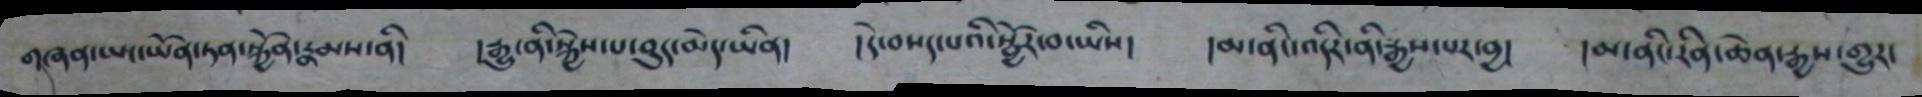གཞན་ཡང་ཡོན་ཏན་སྐྱོན་རྣམས་ནི། །རྒྱུ་ནི་སྐྱེས་པ་བུད་མེད་ཡིན། །དེ་བསད་པའི་སྦྱོར་བ་ཡིས། །མ་ནིང་འདིར་ནི་རྒྱས་པར་བྱ། །མ་ནིང་རིན་ཆེན་རྒྱས་གྱུར་
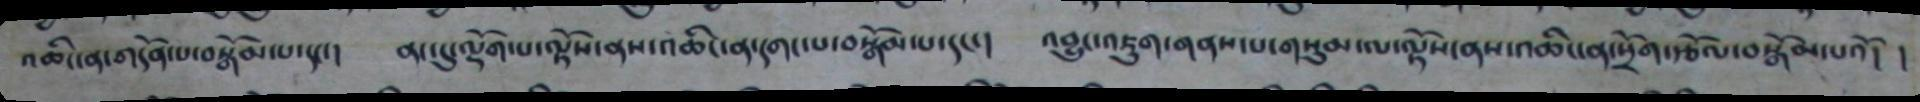འཆིང་ན་གདོན་པ་བསྒོམ་པ་དང་། ནང་དུ་ལྡོག་པ་ལྟོས་ནས་འཆིང་ན་དག་པ་བསྒོམ་པ་དང་། འབྱུང་འཇུག་གནས་པ་གསུམ་ལ་ལྟོས་ནས་འཆིང་ན་སྲོག་རྩོལ་བསྒོམ་པའོ། །
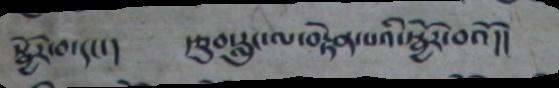སྦྱོར་བ་དང་། རྩུབ་རླུང་ལ་བརྟེན་པའི་སྦྱོར་བའོ།།
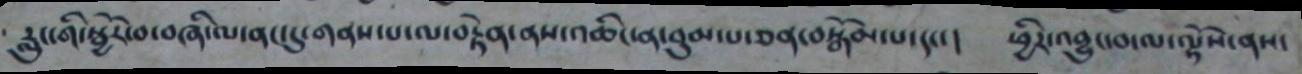རླུང་གི་སྦྱོར་བ་བཞི་ལ་ནང་དུ་གནས་པ་ལ་བརྟེན་ནས་འཆིང་ན་བུམ་པ་ཅན་བསྒོམ་པ་དང་། ཕྱིར་འབྱུང་བ་ལ་ལྟོས་ནས་
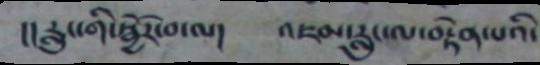།།རླུང་གི་སྦྱོར་བ་ལ། འཇམ་རླུང་ལ་བརྟེན་པའི་
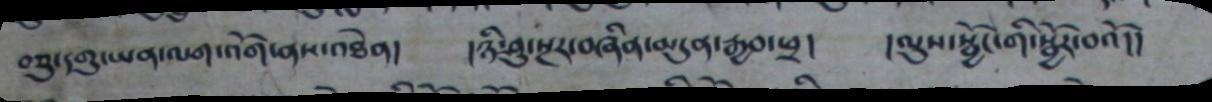བཅུ་དགུ་ཡན་ལག་འོག་ནས་འཐེན། །ཉི་ཤཱུ་སྔར་བཞིན་མདུན་རྒྱབ་ཕྲ། །ལུས་སྦྱོང་གི་སྦྱོར་བའོ།།
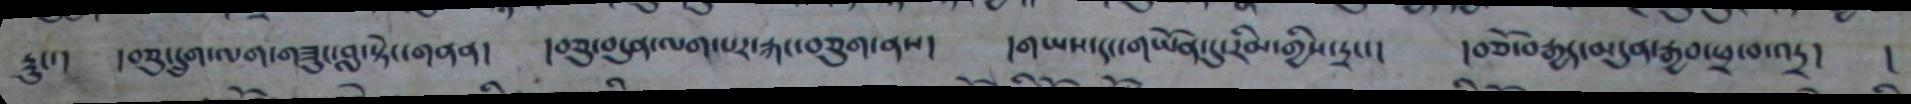རླུང་། །བཅུ་དྲུག་ལག་གཟུང་བླ་སྟེ་གནན། །བཅུ་བདུན་ལག་པར་རྐང་བཅུག་ནས། །གཡས་དང་གཡོན་དུ་རིམ་གྱིས་དྲང་། །བཅོ་བརྒྱད་མདུན་རྒྱབ་ཕྲ་བ་འདྲ། །
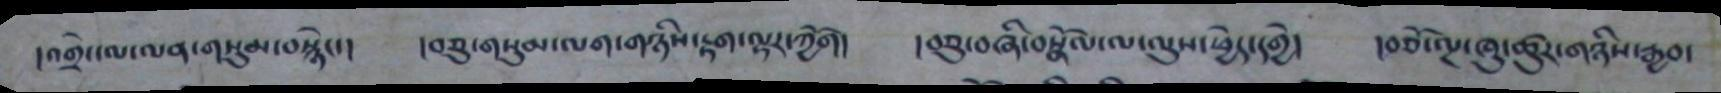།འགྲེང་ལ་ལན་གསུམ་བསྙེང་། །བཅུ་གསུམ་ལག་གཉིས་རྟག་ལྟར་ཀྱོག། །བཅུ་བཞི་བསྣོལ་ལུས་ཕྱེད་དགྱེ། །བཅོ་ལྔ་ཁུ་ཚུར་གཉིས་རྒྱབ་
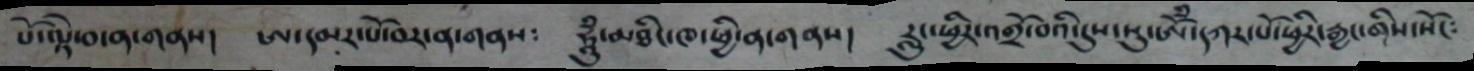པོ་ལྟེ་བ་ན་གནས། ཨ་དམར་པོ་བར་ན་གནས༴ ཧཱུཾ་མཐིང་ཁ་ཕྱི་ན་གནས། རླུང་ཕྱིར་འགྲོ་བའི་དུས་སུ་ཨོཾ་དཀར་པོ་ཕྱིར་རྒྱང་གིས་སོང༴
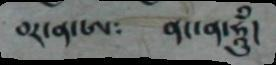བར་ན་ཨ༴ ནང་ན་ཧཱུཾ།
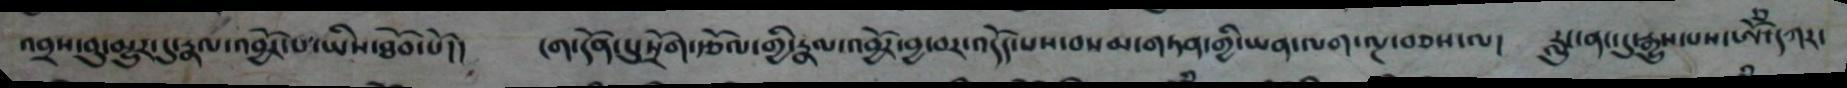འབྲས་བུ་མྱུར་དུ་རྣལ་འབྱོར་པ་ཡིས་ཐོབ་པོ།། ངག་དོན་དུ་སྲོག་རྩོལ་གྱི་རྣལ་འབྱོར་བྱ་བར་འདོད་པས་བསམ་གཏན་གྱི་ཡན་ལག་ལྔ་བཅས་ལ། རླུང་ནང་དུ་རྒྱུས་པས་ཨོཾ་དཀར་
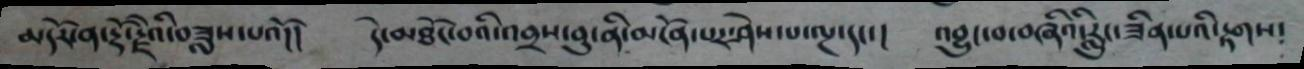མདོར་ན་རྡོ་རྗེའི་བཟླས་པའོ།། དེ་མཐོང་བའི་འབྲས་བུ་ནི་མངོན་པར་ཤེས་པ་ལྔ་དང་། འབྱུང་བ་བཞིའི་རླུང་ཟིན་པའི་རྟགས༴
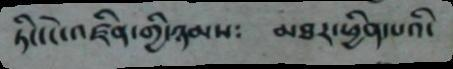ཏིང་ངེ་འཛིན་གྱི་ཉམས༴ མཐར་ཕྱིན་པའི་
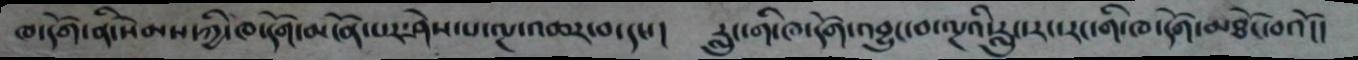ཁ་དོག་ནི་སེམས་ཀྱི་ཁ་དོག་མངོན་པར་ཤེས་ོ་ལྔ་འཆར་བ་དང་། རླུང་གི་ཁ དོག་འབྱུང་བ་ལྔའི་རླུང་རང་རང་གི་ཁ་དོག་མཐོང་བའོ།།
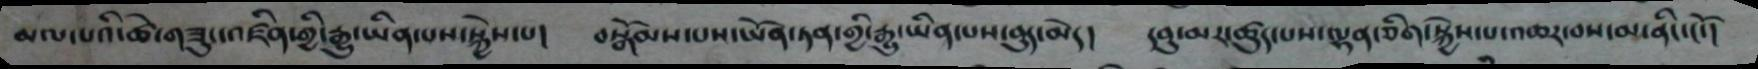མལ་པའི་ཚེ་གཟུང་འཛིན་གྱི་རྒྱུ་ཡིན་པས་སྐྱེས་པ། །བསྒོམས་པས་ཡོན་ཏན་གྱི་རྒྱུ་ཡིན་པས་བུད་མེད། དབུ་མར་ཚུད་པས་ལྷན་ཅིག་སྐྱེས་པ་འཆར་བས་མ་ནིང་ངོ་།
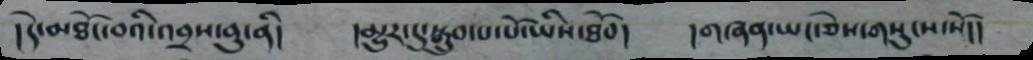།དེ་མཐོང་བའི་འབྲས་བུ་ནི། །མྱུར་དུ་སྒྲུབ་པ་པོ་ཡིས་ཐོབ། །གཞན་ཡང་ཅེས་གསུངས་སོ།།
